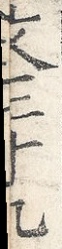文三十九
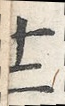十二
